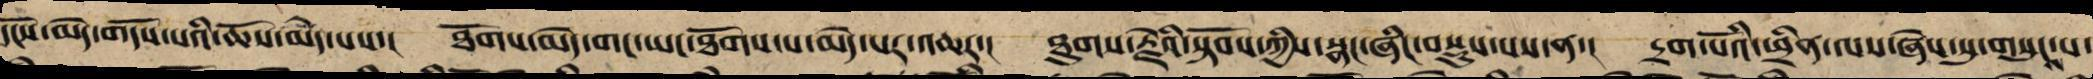དངོས་མེད་གདོས་པའི་ཆོས་མེད་པས་། ཐོགས་མེད་གང་ལ་ཡང་ཐོགས་པ་མེད་པར་འཆར་། ཐུགས་རྗེའི་སྟོབས་ཀྱིས་སྣང་ཞིང་བསྡུས་པས་ན་། དྲག་པོའི་ཕྲིན་ལས་ཞེས་སུ་གསུངས་པ་
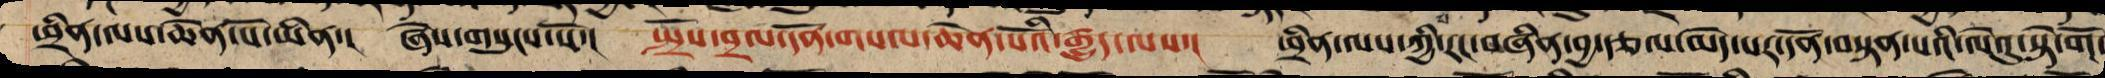ཕྲིན་ལས་ཆེན་པོ་ཡིན་། ཞེས་གསུངས་སོ་། སྤྲོས་བྲལ་དོན་གསལ་ཆེན་པོའི་རྒྱུད་ལས་། ཕྲིན་ལས་ཀྱི་རང་བཞིན་བྱ་རྩལ་མེད་པའི་དོན་བསྟན་པའི་ལེའུ་སྟེ་གོ་
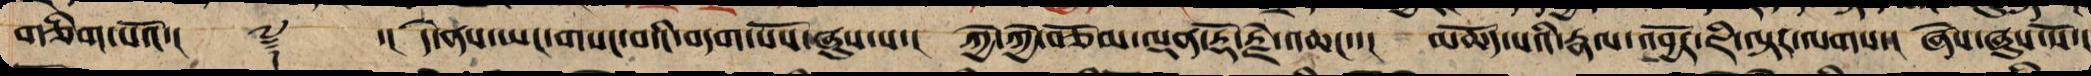གཅིག་པའོ་།། ༈ ་།། དེ་ནས་ཡང་གསང་བའི་བདག་པོས་ཞུས་པ་། ཀྱེ་ཀྱེ་བཅོམ་ལྡན་རྡོ་རྗེ་འཆང་་། མཆོད་པའི་རྣལ་འབྱོར་ཇི་ལྟར་ལགས་། ཞེས་ཞུས་སོ་།
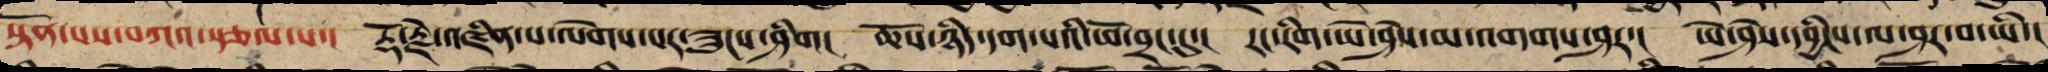སྟོན་པས་བཀའ་སྩལ་པ་། རྡོ་རྗེ་འཛིན་པ་ལེགས་པར་ཟུངས་ཤིག། ཆོས་ཉིད་དག་པའི་ཕོ་བྲང་དུ་། རང་རིག་ཡེ་ཤེས་མ་འགགས་ཤར་། ཡེ་ཤེས་དབྱིངས་ལ་ཤར་བ་ཡི་།
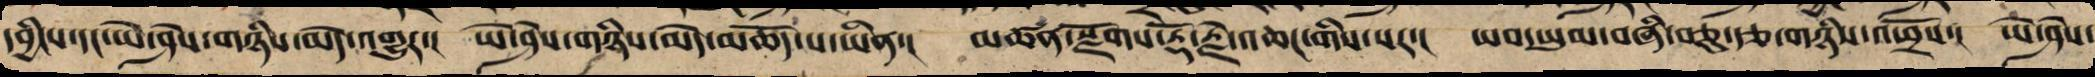དབྱིངས་དང་ཡེ་ཤེས་གཉིས་མེད་འགྱུར་། ཡེ་ཤེས་གཉིས་མེད་མཆོད་པ་ཡིན་། མཚན་སྫོགས་རྡོ་རྗེ་འཆང་གི་སར་། ཡབ་ཡུམ་བཞི་བཅུ་རྩ་གཉིས་འཕྲོས་། ཡེ་ཤེས་
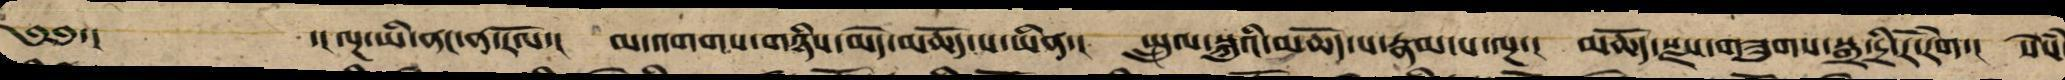༄༅་།  ་།ལྔ་ཡི་ནང་ལ་རོལ་། མ་འགགས་གཉིས་མེད་མཆོད་པ་ཡིན་། སྤྲུལ་སྐུའི་མཆོད་པ་རྣམ་པ་ལྔ་། མཆོད་སྫས་གཟུགས་སྒྲ་དྲི་རོ་རེག་། སེཾས་
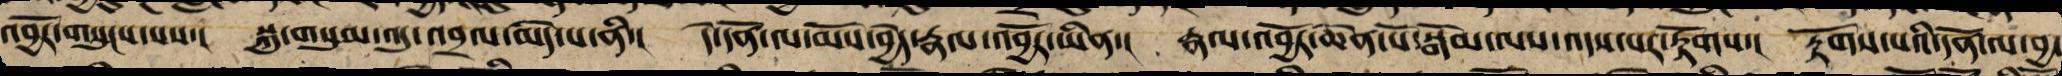འབྱོར་གསུངས་པས་། སྐུ་གསུམ་འདུ་འབྲལ་མེད་པ་ནི་། དེ་དོན་ལ་མོས་བྱེད་རྣལ་འབྱོར་ཡིན་། རྣལ་འབྱོར་ཆེན་པོ་སྒོམ་ལས་འདས་པར་རྟོགས་། རྟོགས་པའི་དོན་ལ་བྱ་
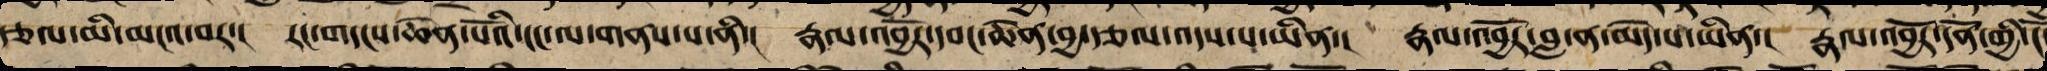རྩལ་མི་མངའ་བར་། རང་གདངས་ཆེན་པོའི་ངང་ལ་གནས་པ་ནི་། རྣལ་འབྱོར་དབང་ཆེན་བྱ་རྩལ་འདས་པ་ཡིན་། དེ་དོན་རང་ལ་གནས་པ་ནི་། རྣལ་འབྱོར་བླ་ན་མེད་པ་ཡིན་། རྣལ་འབྱོར་དོན་གྱི་ངོ་
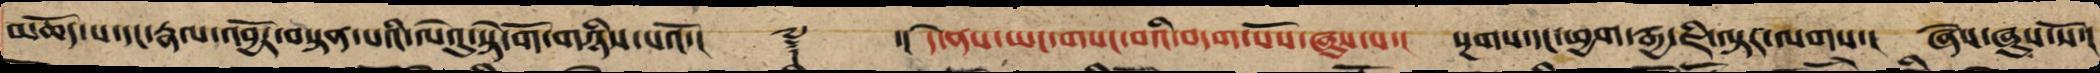མཆོད་པ་དང་རྣལ་འབྱོར་བསྟན་པའི་ལེའུ་སྟེ་གོ་གཉིས་པའོ་།། ༈ ་།། དེ་ནས་ཡང་གསང་བའི་བདག་པོས་ཞུས་པ་། སྔགས་དང་ཕྱག་རྒྱ་ཇི་ལྟར་ལགས་། ཞེས་ཞུས་སོ་།
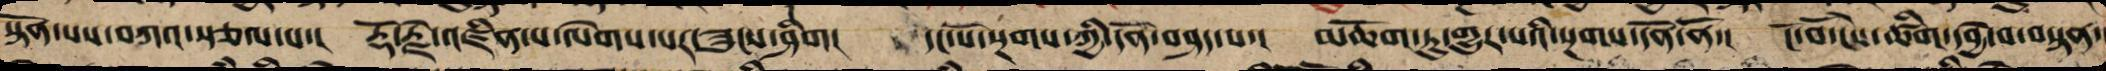སྟོན་པས་བཀའ་སྩལ་པ་། རྡོ་རྗེ་འཛིན་པ་ལེགས་པར་ཟུངས་ཤིག། དང་པོ་སྔགས་ཀྱི་དོན་བཤད་པ་། མཆོག་ཏུ་གྱུར་པའི་སྔགས་དོན་ནོ་། ངོ་བོ་ངེས་ཚིག་དབྱེ་བ་བསྟན་
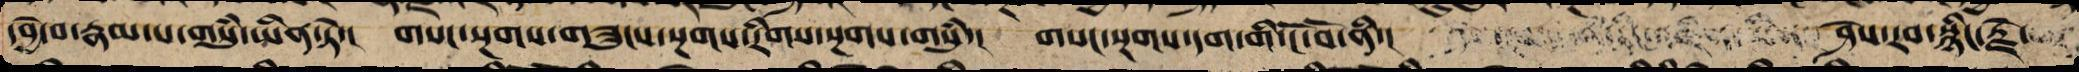དབྱེ་བ་རྣམ་པ་གསུཾ་ཡིན་ཏེ་། གསང་སྔགས་གཟུངས་སྔགས་རིགས་སྔགས་གསུཾ་། གསང་སྔགས་དག་གི་ངོ་བོ་ནི་།   ཤེས་རབ་སྙིང་རྗེ་
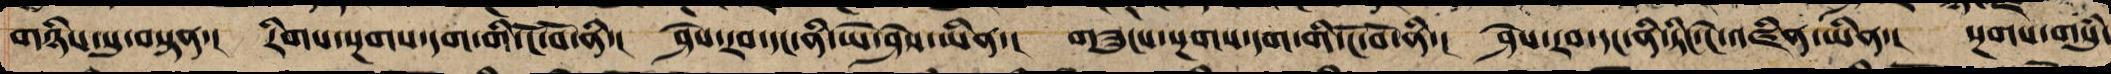གཉིས་སུ་བསྟན་། རིག་སྔགས་དག་གི་ངོ་བོ་ནི་། ཤེས་རབ་དང་ནི་ཡེ་ཤེས་ཡིན་། གཟུངས་སྔགས་དག་གི་ངོ་བོ་ནི་། ཤེས་རབ་དང་ནི་ཏིང་ངེ་འཛིན་ཡིན་། སྔགས་གསུཾ་
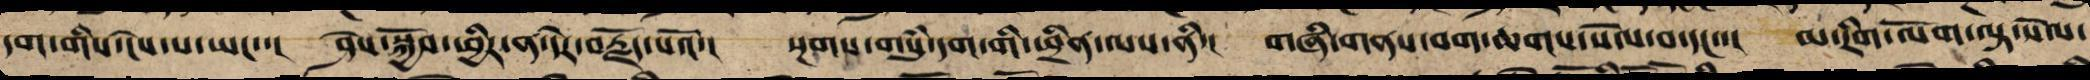དག་གི་ངེས་པ་ཡང་་། ཤེས་སྐྱོབ་ཕྱིར་ན་དེས་བརྗོད་པའོ་། སྔགས་གསུཾ་དག་གི་ཕྲིན་ལས་ནི་། གཞི་གནས་བག་ཆགས་སེལ་བ་དང་་། མ་རིག་ལོག་ལྟ་སེལ་
